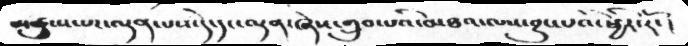མཚུངས་པར་ལྡན་པས་དེ་དང་ལྡན་ཞེས་གྲུབ་པའི་མཐའ་ལས་བྱུང་པའི་ཕྱིར་རོ་།
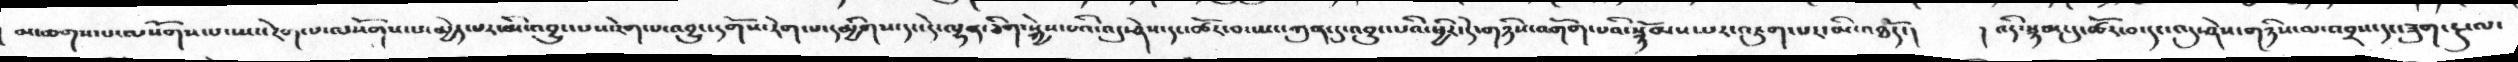མ་ཆགས་པ་ལསོགས་པ་ཡང་རེག་པ་ལསོགས་པ་མྱེད་པར་མི་འབྱུང་པས་རེག་པ་འབྱུང་དགོས་རེག་པ་དམྱིགས་དང་དེ་ལྷན་ཅིག་སྐྱེས་པའི་འདུ་ཤེས་དང་ཚོར་བ་ཡང་ཀུན་དུ་འབྱུང་པའི་ཕྱིར་དེ་གཉིས་འགོག་པའི་སྙོམས་པར་འཇུག་པར་མི་འཐདོ་།  ། འདི་སྙམ་དུ་ཚོར་བ་དང་འདུ་ཤེས་གཉིས་ལ་འབྲས་དང་ཟུག་རྔུ་ལ་
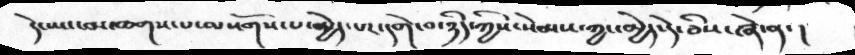དེ་ཡང་མ་ཆགས་པ་ལསོགས་པ་མྱེད་པར་དགེ་བ་ཉིད་ཀྱིས་སེམས་ཀྱང་མྱེད་དེ་ཅིས་ཞེ་ན་།
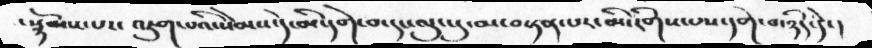་སྙོམས་པར་འཇུག་པའི་སེམས་དེ་མི་དགེ་བ་དང་ལུང་དུ་མ་བསྟན་པར་མི་རིགས་པས་དགེ་བ་ཉིད་དེ་།
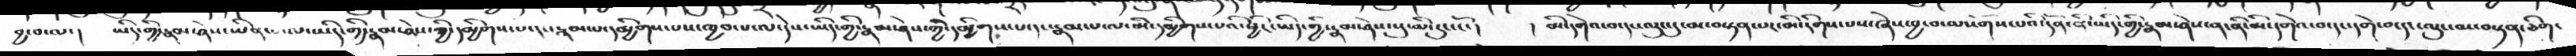བྱ་བ་ལ་།    ཡིད་གྱི་རྣམ་ཤེས་ཡིན་པ་ལ་ཡིད་གྱི་རྣམ་ཤེས་ཀྱི་དམྱིགས་པ་དང་རྣམ་པ་དམྱིགས་པས་ཁྱབ་པ་ལ་དེས་ཡིད་གྱི་རྣམ་ཤེས་ཀྱི་དམྱིགས་པ་དང་རྣམ་པ་ལ་མི་དམྱིགས་པའི་ཕྱིར་ཡིད་གྱི་རྣམ་ཤེས་སུ་མི་རུང་ངོ་།   ། མི་དགེའ་བ་དང་ལུང་དུ་མ་བསྟན་པར་མི་རིགས་པས་ཞེས་བྱ་བ་ལསོགས་པའི་དོན་ནི་ཡིད་གྱི་རྣམ་ཤེས་ན་ནི་མི་དགེའ་བ་དང་དགེ་བ་དང་ལུང་མ་བསྟན་ཅིག་
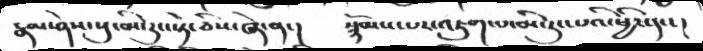རྣམ་ཤེས་སུ་མི་རུང་སྟེ་ཅིས་ཞེ་ན་།    སྙོམས་པར་འཇུག་པ་མི་རུང་པའི་ཕྱིར་དང་།
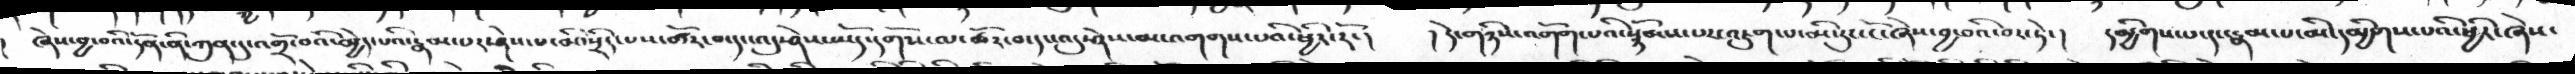ཞེས་བྱ་བའི་དོན་ནི་ཀུན་དུ་འགྲོ་བའི་མྱེད་པའི་རྣམ་པར་ཤེས་པ་མི་སྲིད་པས་ཚོར་བ་དང་འདུ་ཤེས་ཡོད་དགོས་ལ་ཚོར་བ་དང་འདུ་ཤེས་མ་འགགས་པའི་ཕྱིར་རོ་།   །དེ་གཉིས་འགོག་པའི་སྙོམས་པར་འཇུག་པ་མི་རུང་ངོ་ཞེས་བྱ་བའི་བར་ཏེ་།    དམྱིགས་པ་དང་རྣམ་པ་མི་དམྱིགས་པའི་ཕྱིར་ཞེས་
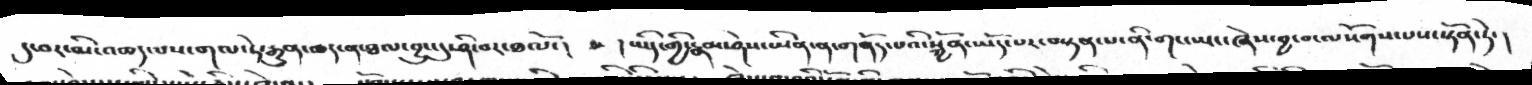དུ་བར་མི་འཆད་པས་གལ་ཏེ་རྒྱུན་ཆད་ན་ཐལ་བྱུང་དུ་ཤི་བར་ཐལོ་།   ། ཡིད་གྱི་རྣམ་ཤེས་ཡིན་ན་གནོད་པའི་སྐྱོན་ཡོད་པར་བསྟན་པ་ནི་གང་ཡང་ཞེས་བྱ་བ་ལསོགས་པས་སྟོན་ཏེ་།
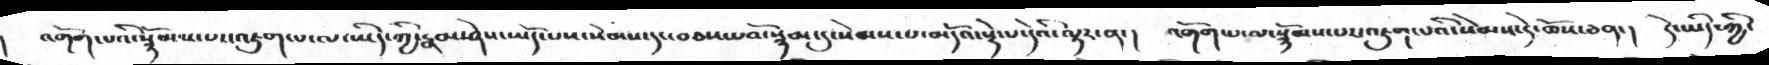།  འགོག་པའི་སྙོམས་པར་འཇུག་པ་ལ་ཡིད་ཀྱི་རྣམ་ཤེས་ཡོད་པས་སེམས་དང་བཅས་པའོ་སྙམ་དུ་སེམས་པ་མདོའ་སྡེ་པ་དེའི་ལྟར་ན་།   འགོག་པ་ལ་སྙོམས་པར་འཇུག་པའི་སེམས་དེ་ཆོས་ཅན་།    དེ་ཡིད་ཀྱི་
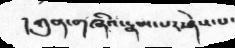། ཀུན་གཞིའི་རྣམ་པར་ཤེས་པ་
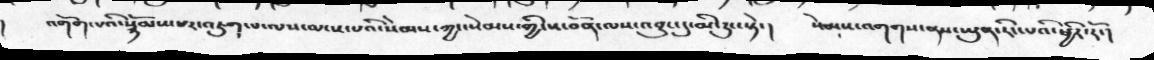།  འགོག་པའི་སྙོམས་པར་འཇུག་པ་ལས་མངས་པའི་སེམསཀྱང་སེམས་གྱི་ས་བོན་ལས་འབྱུང་དུ་མི་རུང་སྟེ་།  སེམས་འགགས་ནས་ཡུན་རིང་་པའི་ཕྱིར་རོ་།
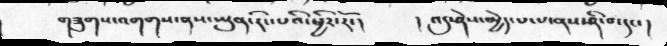གཟུགས་འགགས་ནས་ཡུན་རིང་པའི་ཕྱིར་རོ་།    །འདུ་ཤེས་མྱེད་པ་པ་ནས་ཤི་བ་དང་།
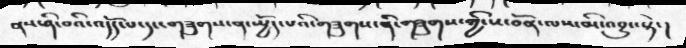ནས་ཤི་བའི་འདོད་པ་དང་གཟུགས་ན་སྤྱོད་པའི་གཟུགས་ནི་གཟུགས་གྱི་ས་བོན་ལས་མི་འབྱུང་སྟེ་།
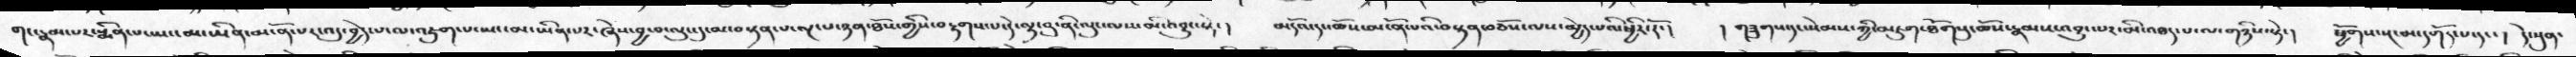གང་རྣམ་པར་སྨིན་པ་ཡང་མ་ཡིན་མངོན་པར་འདུ་བྱེད་པ་ལ་འཇུག་པ་ཡང་མ་ཡིན་པར་ཞེས་བྱ་བ་ལུང་དུ་མ་བསྟན་པ་ལྔ་པ་ཉན་ཐོས་གྱིས་བརྟགས་པ་དེ་ལྟ་བུ་ནི་ལུང་ལས་མི་འབྱུང་སྟེ་།  མདོའ་དང་ཆོས་མངོན་པའི་བསྟན་བཅོས་ལས་མྱེད་པའི་ཕྱིར་རོ་།  །གཟུགས་དང་སེམས་ཀྱི་མཇུག་ཐོག་དུ་ཆོས་རྣམས་འབྱུང་པར་མི་འཐད་པ་ལ་གཉིས་སྟེ་།   ཕྱོགས་སྔ་མ་དགོད་པ་དང་།  དེ་སུན་
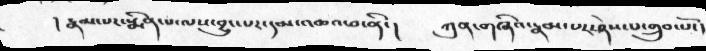། རྣམ་པར་སྨིན་པ་ལས་བྱུང་པར་དམ་འཆའ་བ་ནི་།      ཀུན་གཞིའ་རྣམ་པར་ཤེས་པ་གྲུབ་པོ་།
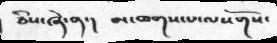ཅིས་ཞེ་ན་།    མ་ཆགས་པ་ལསོགས་
